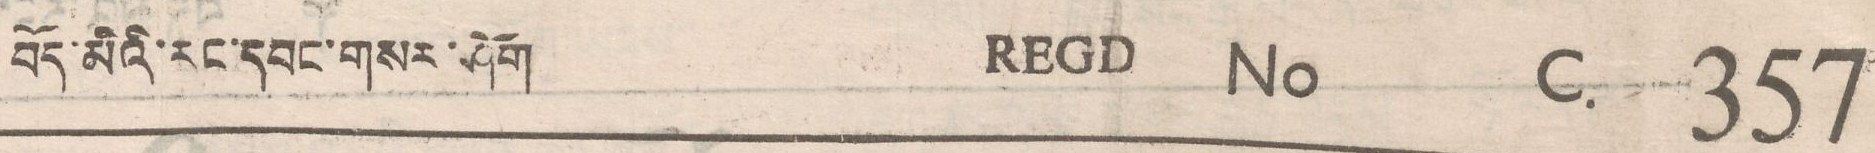བོད་མིའི་རང་དབང་གསར་ཤོག REGD No C. 357
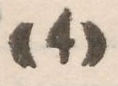((4))
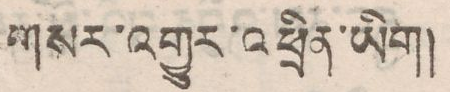གསར་འགྱུར་འཕྲིན་ཡིག།
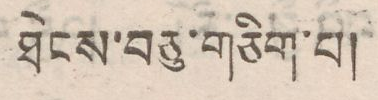ཐེངས་བཅུ་གཅིག་པ།
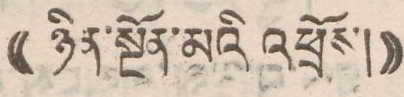(( ཉིན་སྔོན་མའི འཕྲོས། ))
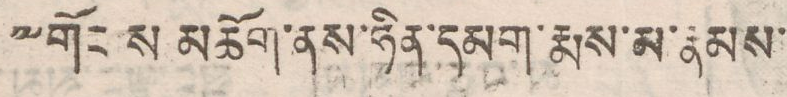༸གོང ས མཆོག་ནས་ཧིན་དམག་རྨས་མ་རྣམས་
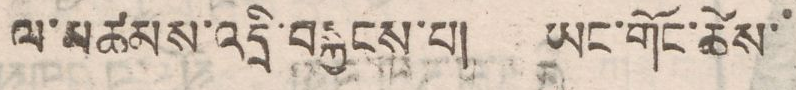ལ་འཚམས་འདྲི་བསྐྱངས་པ། ཡང་གོང་ཚེས་
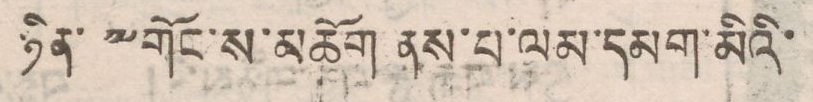ཉིན་༸གོང་ས་མཆོག ནས་པ་ལམ་དམག་མིའི་
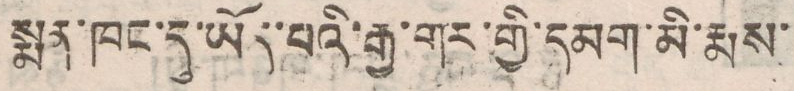སྨན་ཁང་དུ་ཡོད་པའི་རྒྱ་གར་གྱི་དམག་མི་རྨས་
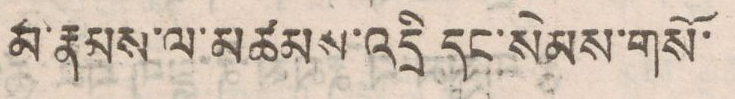མ་རྣམས་ལ་མཚམས་འདྲི དང་སེམས་གསོ་
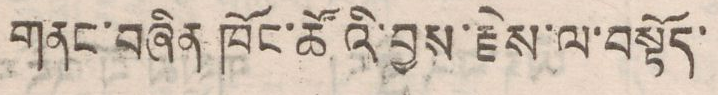གནང་བཞིན ཁོང་ཚོའི་བྱས་རྗེས་ལ་བསྟོད་
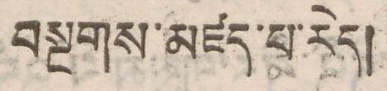བསྔགས་མཛད་པ་རེད།
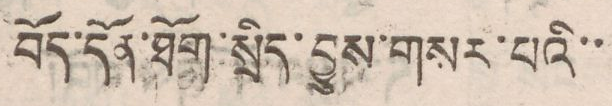བོད་དོན་ཐོག་སྲིད་བྱུས་གསར་པའི་་
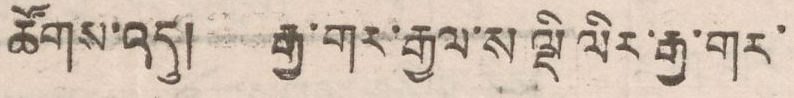ཚོགས་འདུ། རྒྱ་གར་རྒྱལ་ས་ལྡི་ལིར་རྒྱ་གར་
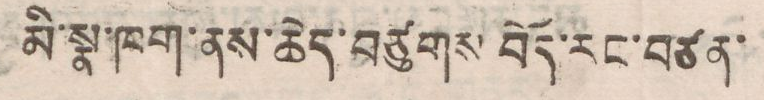མི་སྣ་ཁག་ནས་ཆེད་བཙུགས བོད་རང་བཙན་
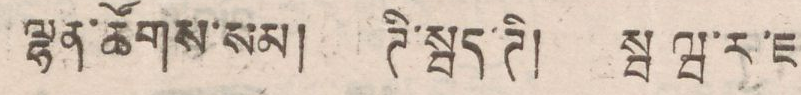ལྷན་ཚོགས་སམ། ཊི་སྦད་ཊི། སྦ ཝ་ར་ཇ
